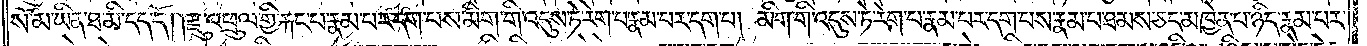སོ་མ་ཡིན་ཐ་མི་དད་དོ། །རྫུ་འཕྲུལ་གྱི་རྐང་པ་རྣམ་པར་དག་པས་མིག་གི་འདུས་ཏེ་རེག་པ་རྣམ་པར་དག་པ། མིག་གི་འདུས་ཏེ་རེག་པ་རྣམ་པར་དག་པས་རྣམ་པ་ཐམས་ཅད་མཁྱེན་པ་ཉིད་རྣམ་པར་
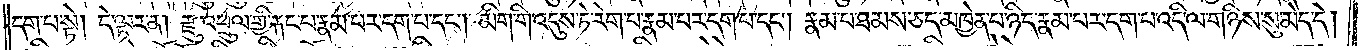དག་པ་སྟེ། དེ་ལྟར་ན། རྫུ་འཕྲུལ་གྱི་རྐང་པ་རྣམ་པར་དག་པ་དང༌། མིག་གི་འདུས་ཏེ་རེག་པ་རྣམ་པར་དག་པ་དང༌། རྣམ་པ་ཐམས་ཅད་མཁྱེན་པ་ཉིད་རྣམ་པར་དག་པ་འདི་ལ་གཉིས་སུ་མེད་དེ།
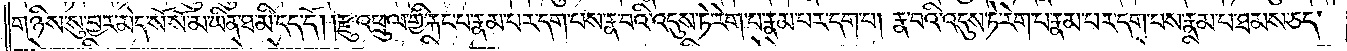གཉིས་སུ་བྱར་མེད་སོ་སོ་མ་ཡིན་ཐ་མི་དད་དོ། །རྫུ་འཕྲུལ་གྱི་རྐང་པ་རྣམ་པར་དག་པས་རྣ་བའི་འདུས་ཏེ་རེག་པ་རྣམ་པར་དག་པ། རྣ་བའི་འདུས་ཏེ་རེག་པ་རྣམ་པར་དག་པས་རྣམ་པ་ཐམས་ཅད་
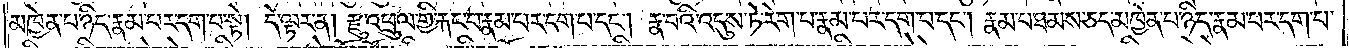མཁྱེན་པ་ཉིད་རྣམ་པར་དག་པ་སྟེ། དེ་ལྟར་ན། རྫུ་འཕྲུལ་གྱི་རྐང་པ་རྣམ་པར་དག་པ་དང༌། རྣ་བའི་འདུས་ཏེ་རེག་པ་རྣམ་པར་དག་པ་དང༌། རྣམ་པ་ཐམས་ཅད་མཁྱེན་པ་ཉིད་རྣམ་པར་དག་པ་
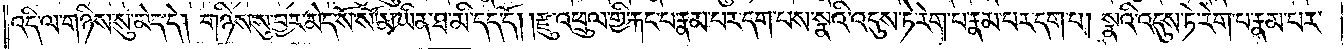འདི་ལ་གཉིས་སུ་མེད་དེ། གཉིས་སུ་བྱར་མེད་སོ་སོ་མ་ཡིན་ཐ་མི་དད་དོ། །རྫུ་འཕྲུལ་གྱི་རྐང་པ་རྣམ་པར་དག་པས་སྣའི་འདུས་ཏེ་རེག་པ་རྣམ་པར་དག་པ། སྣའི་འདུས་ཏེ་རེག་པ་རྣམ་པར་
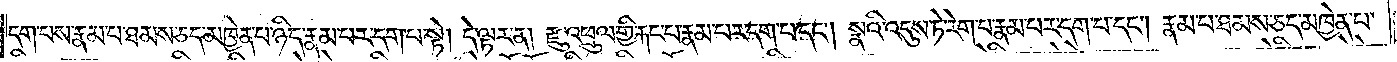དག་པས་རྣམ་པ་ཐམས་ཅད་མཁྱེན་པ་ཉིད་རྣམ་པར་དག་པ་སྟེ། དེ་ལྟར་ན། རྫུ་འཕྲུལ་གྱི་རྐང་པ་རྣམ་པར་དག་པ་དང༌། སྣའི་འདུས་ཏེ་རེག་པ་རྣམ་པར་དག་པ་དང༌། རྣམ་པ་ཐམས་ཅད་མཁྱེན་པ་
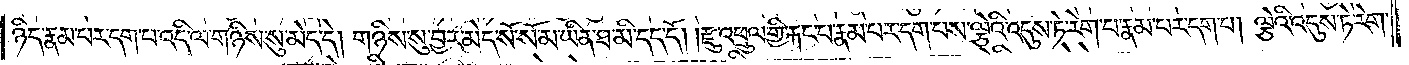ཉིད་རྣམ་པར་དག་པ་འདི་ལ་གཉིས་སུ་མེད་དེ། གཉིས་སུ་བྱར་མེད་སོ་སོ་མ་ཡིན་ཐ་མི་དད་དོ། །རྫུ་འཕྲུལ་གྱི་རྐང་པ་རྣམ་པར་དག་པས་ལྕེའི་འདུས་ཏེ་རེག་པ་རྣམ་པར་དག་པ། ལྕེའི་འདུས་ཏེ་རེག་
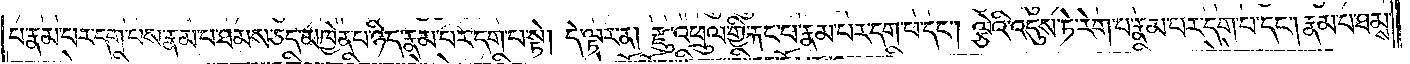པ་རྣམ་པར་དག་པས་རྣམ་པ་ཐམས་ཅད་མཁྱེན་པ་ཉིད་རྣམ་པར་དག་པ་སྟེ། དེ་ལྟར་ན། རྫུ་འཕྲུལ་གྱི་རྐང་པ་རྣམ་པར་དག་པ་དང༌། ལྕེའི་འདུས་ཏེ་རེག་པ་རྣམ་པར་དག་པ་དང༌། རྣམ་པ་ཐམས་
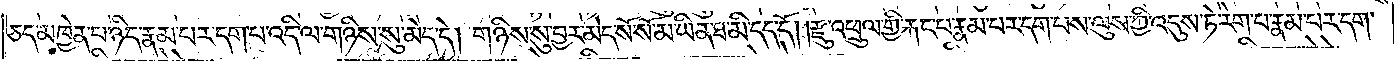ཅད་མཁྱེན་པ་ཉིད་རྣམ་པར་དག་པ་འདི་ལ་གཉིས་སུ་མེད་དེ། གཉིས་སུ་བྱར་མེད་སོ་སོ་མ་ཡིན་ཐ་མི་དད་དོ། །རྫུ་འཕྲུལ་གྱི་རྐང་པ་རྣམ་པར་དག་པས་ལུས་ཀྱི་འདུས་ཏེ་རེག་པ་རྣམ་པར་དག་
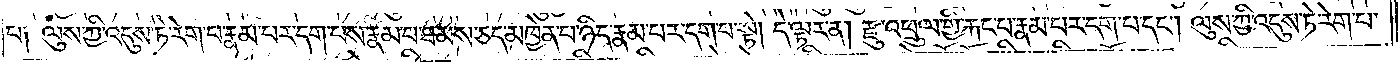པ༑ ལུས་ཀྱི་འདུས་ཏེ་རེག་པ་རྣམ་པར་དག་པས་རྣམ་པ་ཐམས་ཅད་མཁྱེན་པ་ཉིད་རྣམ་པར་དག་པ་སྟེ། དེ་ལྟར་ན། རྫུ་འཕྲུལ་གྱི་རྐང་པ་རྣམ་པར་དག་པ་དང༌། ལུས་ཀྱི་འདུས་ཏེ་རེག་པ་
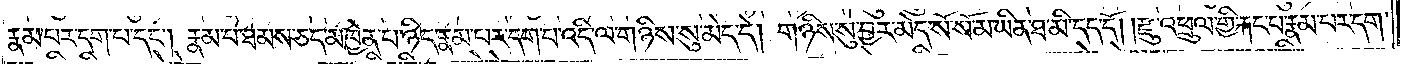རྣམ་པར་དག་པ་དང༌། རྣམ་པ་ཐམས་ཅད་མཁྱེན་པ་ཉིད་རྣམ་པར་དག་པ་འདི་ལ་གཉིས་སུ་མེད་དེ། གཉིས་སུ་བྱར་མེད་སོ་སོ་མ་ཡིན་ཐ་མི་དད་དོ། །རྫུ་འཕྲུལ་གྱི་རྐང་པ་རྣམ་པར་དག་
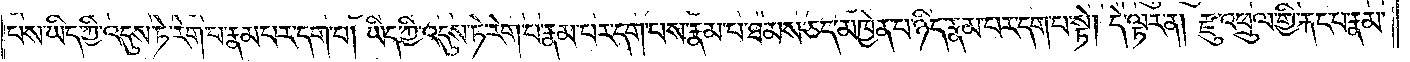པས་ཡིད་ཀྱི་འདུས་ཏེ་རེག་པ་རྣམ་པར་དག་པ། ཡིད་ཀྱི་འདུས་ཏེ་རེག་པ་རྣམ་པར་དག་པས་རྣམ་པ་ཐམས་ཅད་མཁྱེན་པ་ཉིད་རྣམ་པར་དག་པ་སྟེ། དེ་ལྟར་ན། རྫུ་འཕྲུལ་གྱི་རྐང་པ་རྣམ་
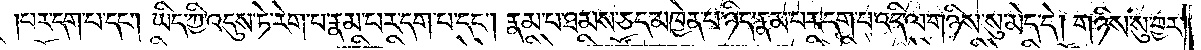པར་དག་པ་དང༌། ཡིད་ཀྱི་འདུས་ཏེ་རེག་པ་རྣམ་པར་དག་པ་དང༌། རྣམ་པ་ཐམས་ཅད་མཁྱེན་པ་ཉིད་རྣམ་པར་དག་པ་འདི་ལ་གཉིས་སུ་མེད་དེ། གཉིས་སུ་བྱར་
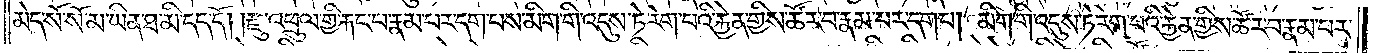མེད་སོ་སོ་མ་ཡིན་ཐ་མི་དད་དོ། །རྫུ་འཕྲུལ་གྱི་རྐང་པ་རྣམ་པར་དག་པས་མིག་གི་འདུས་ཏེ་རེག་པའི་རྐྱེན་གྱིས་ཚོར་བ་རྣམ་པར་དག་པ། མིག་གི་འདུས་ཏེ་རེག་པའི་རྐྱེན་གྱིས་ཚོར་བ་རྣམ་པར་
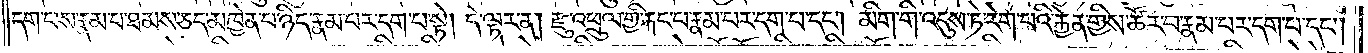དག་པས་རྣམ་པ་ཐམས་ཅད་མཁྱེན་པ་ཉིད་རྣམ་པར་དག་པ་སྟེ། དེ་ལྟར་ན། རྫུ་འཕྲུལ་གྱི་རྐང་པ་རྣམ་པར་དག་པ་དང༌། མིག་གི་འདུས་ཏེ་རེག་པའི་རྐྱེན་གྱིས་ཚོར་བ་རྣམ་པར་དག་པ་དང༌།
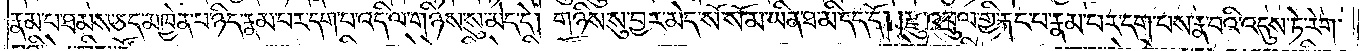རྣམ་པ་ཐམས་ཅད་མཁྱེན་པ་ཉིད་རྣམ་པར་དག་པ་འདི་ལ་གཉིས་སུ་མེད་དེ། གཉིས་སུ་བྱར་མེད་སོ་སོ་མ་ཡིན་ཐ་མི་དད་དོ། །རྫུ་འཕྲུལ་གྱི་རྐང་པ་རྣམ་པར་དག་པས་རྣ་བའི་འདུས་ཏེ་རེག་
